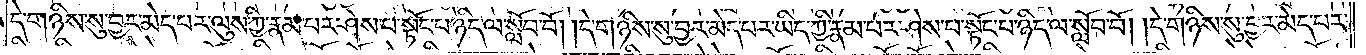དེ་གཉིས་སུ་བྱར་མེད་པར་ལུས་ཀྱི་རྣམ་པར་ཤེས་པ་སྟོང་པ་ཉིད་ལ་སློབ་བོ། །དེ་གཉིས་སུ་བྱར་མེད་པར་ཡིད་ཀྱི་རྣམ་པར་ཤེས་པ་སྟོང་པ་ཉིད་ལ་སློབ་བོ། །དེ་གཉིས་སུ་བྱར་མེད་པར་
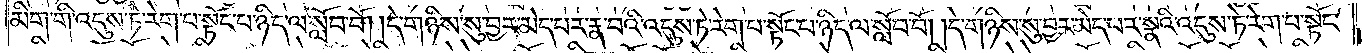མིག་གི་འདུས་ཏེ་རེག་པ་སྟོང་པ་ཉིད་ལ་སློབ་བོ། །དེ་གཉིས་སུ་བྱར་མེད་པར་རྣ་བའི་འདུས་ཏེ་རེག་པ་སྟོང་པ་ཉིད་ལ་སློབ་བོ། །དེ་གཉིས་སུ་བྱར་མེད་པར་སྣའི་འདུས་ཏེ་རེག་པ་སྟོང་
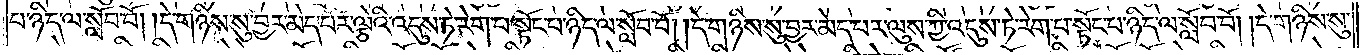པ་ཉིད་ལ་སློབ་བོ། །དེ་གཉིས་སུ་བྱར་མེད་པར་ལྕེའི་འདུས་ཏེ་རེག་པ་སྟོང་པ་ཉིད་ལ་སློབ་བོ། །དེ་གཉིས་སུ་བྱར་མེད་པར་ལུས་ཀྱི་འདུས་ཏེ་རེག་པ་སྟོང་པ་ཉིད་ལ་སློབ་བོ། །དེ་གཉིས་སུ་
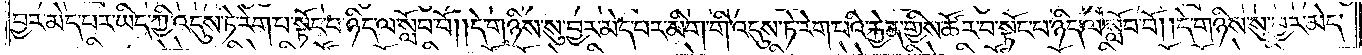བྱར་མེད་པར་ཡིད་ཀྱི་འདུས་ཏེ་རེག་པ་སྟོང་པ་ཉིད་ལ་སློབ་བོ། །དེ་གཉིས་སུ་བྱར་མེད་པར་མིག་གི་འདུས་ཏེ་རེག་པའི་རྐྱེན་གྱིས་ཚོར་བ་སྟོང་པ་ཉིད་ལ་སློབ་བོ། །དེ་གཉིས་སུ་བྱར་མེད་
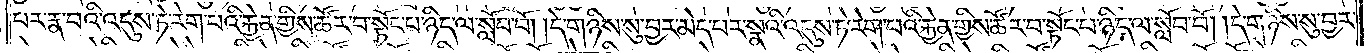པར་རྣ་བའི་འདུས་ཏེ་རེག་པའི་རྐྱེན་གྱིས་ཚོར་བ་སྟོང་པ་ཉིད་ལ་སློབ་བོ། །དེ་གཉིས་སུ་བྱར་མེད་པར་སྣའི་འདུས་ཏེ་རེག་པའི་རྐྱེན་གྱིས་ཚོར་བ་སྟོང་པ་ཉིད་ལ་སློབ་བོ། །དེ་གཉིས་སུ་བྱར་
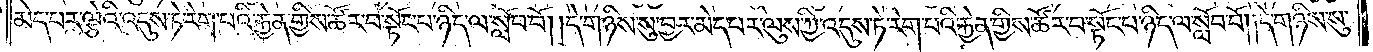མེད་པར་ལྕེའི་འདུས་ཏེ་རེག་པའི་རྐྱེན་གྱིས་ཚོར་བ་སྟོང་པ་ཉིད་ལ་སློབ་བོ། །དེ་གཉིས་སུ་བྱར་མེད་པར་ལུས་ཀྱི་འདུས་ཏེ་རེག་པའི་རྐྱེན་གྱིས་ཚོར་བ་སྟོང་པ་ཉིད་ལ་སློབ་བོ། །དེ་གཉིས་སུ་
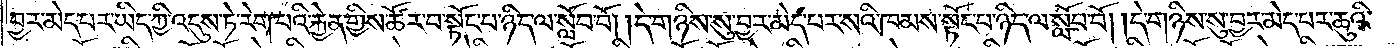བྱར་མེད་པར་ཡིད་ཀྱི་འདུས་ཏེ་རེག་པའི་རྐྱེན་གྱིས་ཚོར་བ་སྟོང་པ་ཉིད་ལ་སློབ་བོ། །དེ་གཉིས་སུ་བྱར་མེད་པར་སའི་ཁམས་སྟོང་པ་ཉིད་ལ་སློབ་བོ། །དེ་གཉིས་སུ་བྱར་མེད་པར་ཆུའི་
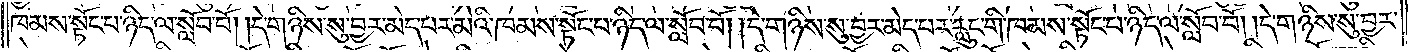ཁམས་སྟོང་པ་ཉིད་ལ་སློབ་བོ། །དེ་གཉིས་སུ་བྱར་མེད་པར་མེའི་ཁམས་སྟོང་པ་ཉིད་ལ་སློབ་བོ། །དེ་གཉིས་སུ་བྱར་མེད་པར་རླུང་གི་ཁམས་སྟོང་པ་ཉིད་ལ་སློབ་བོ། །དེ་གཉིས་སུ་བྱར་
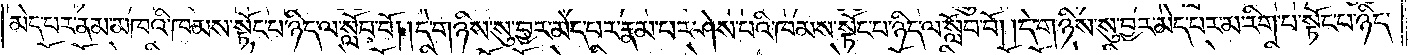མེད་པར་ནམ་མཁའི་ཁམས་སྟོང་པ་ཉིད་ལ་སློབ་བོ། །དེ་གཉིས་སུ་བྱར་མེད་པར་རྣམ་པར་ཤེས་པའི་ཁམས་སྟོང་པ་ཉིད་ལ་སློབ་བོ། །དེ་གཉིས་སུ་བྱར་མེད་པར་མ་རིག་པ་སྟོང་པ་ཉིད་
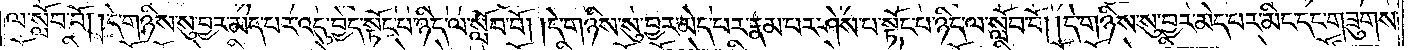ལ་སློབ་བོ། །དེ་གཉིས་སུ་བྱར་མེད་པར་འདུ་བྱེད་སྟོང་པ་ཉིད་ལ་སློབ་བོ། །དེ་གཉིས་སུ་བྱར་མེད་པར་རྣམ་པར་ཤེས་པ་སྟོང་པ་ཉིད་ལ་སློབ་བོ། །དེ་གཉིས་སུ་བྱར་མེད་པར་མིང་དང་གཟུགས་
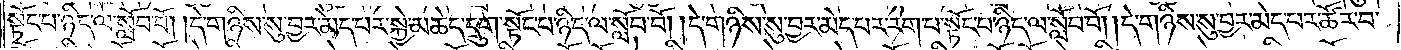སྟོང་པ་ཉིད་ལ་སློབ་བོ། །དེ་གཉིས་སུ་བྱར་མེད་པར་སྐྱེ་མཆེད་དྲུག་སྟོང་པ་ཉིད་ལ་སློབ་བོ། །དེ་གཉིས་སུ་བྱར་མེད་པར་རེག་པ་སྟོང་པ་ཉིད་ལ་སློབ་བོ། །དེ་གཉིས་སུ་བྱར་མེད་པར་ཚོར་བ་
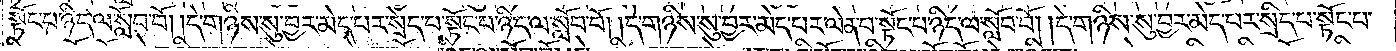སྟོང་པ་ཉིད་ལ་སློབ་བོ། །དེ་གཉིས་སུ་བྱར་མེད་པར་སྲེད་པ་སྟོང་པ་ཉིད་ལ་སློབ་བོ། །དེ་གཉིས་སུ་བྱར་མེད་པར་ལེན་པ་སྟོང་པ་ཉིད་ལ་སློབ་བོ། །དེ་གཉིས་སུ་བྱར་མེད་པར་སྲིད་པ་སྟོང་པ་
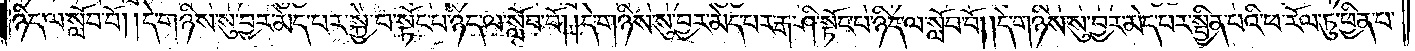ཉིད་ལ་སློབ་བོ། །དེ་གཉིས་སུ་བྱར་མེད་པར་སྐྱེ་བ་སྟོང་པ་ཉིད་ལ་སློབ་བོ། །དེ་གཉིས་སུ་བྱར་མེད་པར་རྒ་ཤི་སྟོང་པ་ཉིད་ལ་སློབ་བོ། །དེ་གཉིས་སུ་བྱར་མེད་པར་སྦྱིན་པའི་ཕ་རོལ་ཏུ་ཕྱིན་པ་
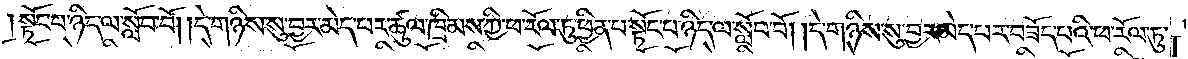སྟོང་པ་ཉིད་ལ་སློབ་བོ། །དེ་གཉིས་སུ་བྱར་མེད་པར་ཚུལ་ཁྲིམས་ཀྱི་ཕ་རོལ་ཏུ་ཕྱིན་པ་སྟོང་པ་ཉིད་ལ་སློབ་བོ། །དེ་གཉིས་སུ་བྱར་མེད་པར་བཟོད་པའི་ཕ་རོལ་ཏུ་
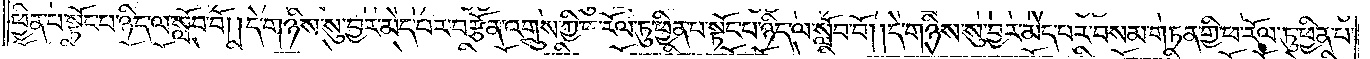ཕྱིན་པ་སྟོང་པ་ཉིད་ལ་སློབ་བོ། །དེ་གཉིས་སུ་བྱར་མེད་པར་བརྩོན་འགྲུས་ཀྱི་ཕ་རོལ་ཏུ་ཕྱིན་པ་སྟོང་པ་ཉིད་ལ་སློབ་བོ། །དེ་གཉིས་སུ་བྱར་མེད་པར་བསམ་གཏན་གྱི་ཕ་རོལ་ཏུ་ཕྱིན་པ་
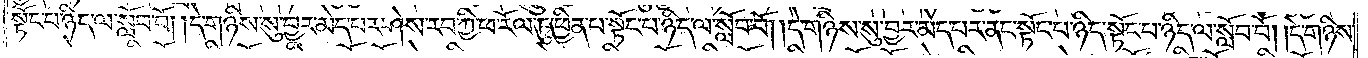སྟོང་པ་ཉིད་ལ་སློབ་བོ༑ ༑དེ་གཉིས་སུ་བྱར་མེད་པར་ཤེས་རབ་ཀྱི་ཕ་རོལ་ཏུ་ཕྱིན་པ་སྟོང་པ་ཉིད་ལ་སློབ་བོ། །དེ་གཉིས་སུ་བྱར་མེད་པར་ནང་སྟོང་པ་ཉིད་སྟོང་པ་ཉིད་ལ་སློབ་བོ། །དེ་གཉིས་
